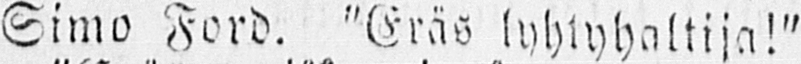Simo Ford. "Eräs lyhtyhaltija!"
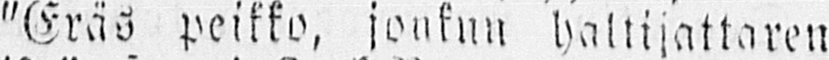"Eräs peikko, jonkun haltijattaren
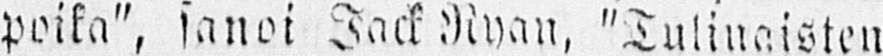poika", sanoi Jack Nyan, "Tulinaisten
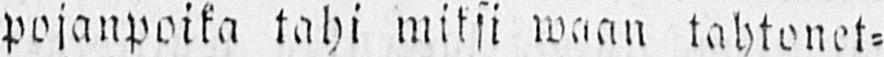pojanpoika tahi miksi waan tahtonet-
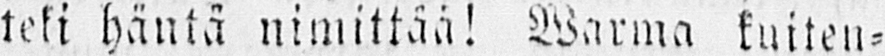teki häntä nimittää! Warma kuiten-
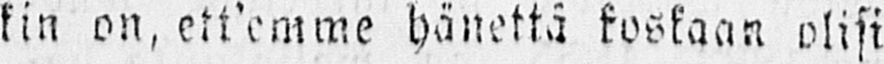kin on, ett'emme hänettä koskaan olisi
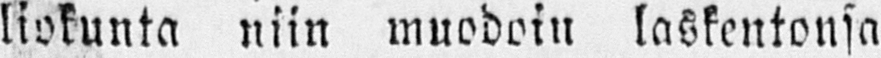liokunta niin muodein laskentonsa
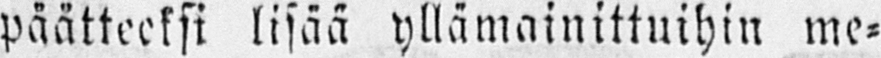päätteeksi lisää yllämainittuihin me-
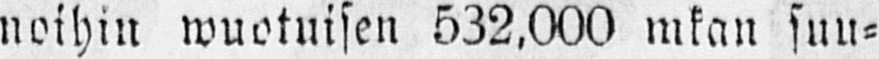noihin wuotuisen 532,000 mkan suu-
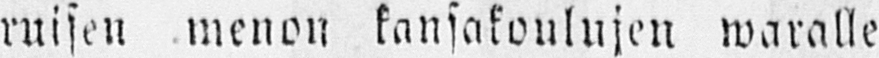ruisen menen kansakoulujen waralle
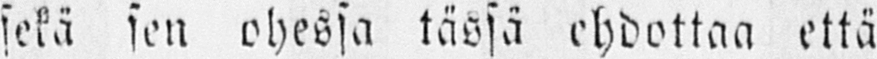sekä sen ohessa tässä ehdottaa että
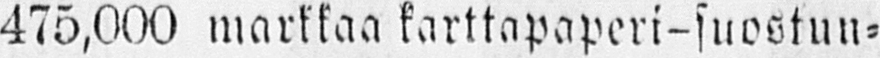475,000 markkaa karttapaperi-suostun-
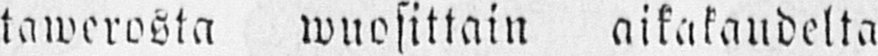tawerosta wuosittain aikakaudelta
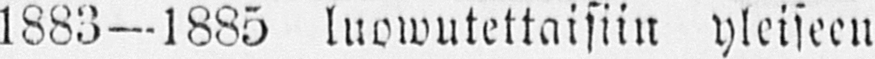1883—1885 luowutettaisiin yleiseen
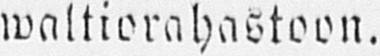waltiorahastoon.
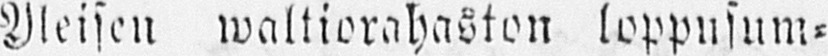Yleisen waltiorahaston loppusum-
